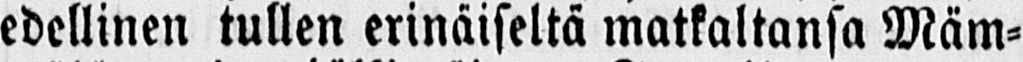edellinen tullen erinäiseltä matkaltansa Mäm-
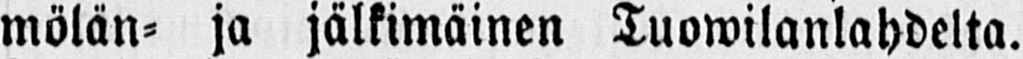mölän- ja jälkimäinen Tuowilanlahdelta.
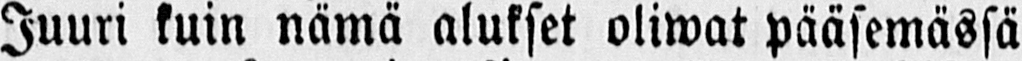Juuri kuin nämä alukset oliwat pääsemässä
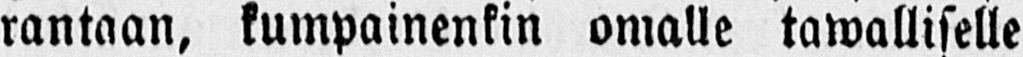rantaan, kumpainenkin omalle tawalliselle
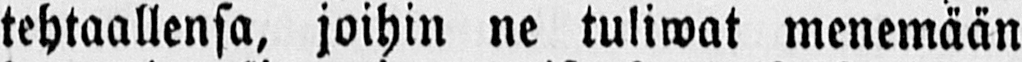tehtaallensa, joihin ne tuliwat menemään
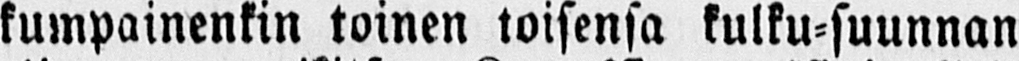kumpainenkin toinen toisensa kulku-suunnan
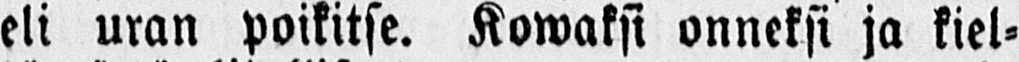eli uran poikitse. Kowaksi onneksi ja kiel-
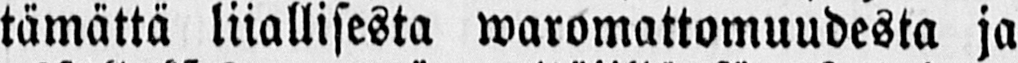tämättä liiallisesta waromattomuudesta ja
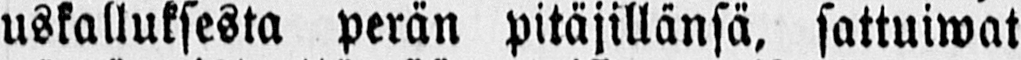uskalluksesta perän pitäjillänsä, sattuiwat
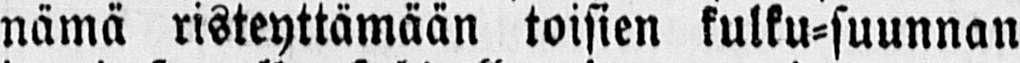nämä risteyttämään toisien kulku-suunnan
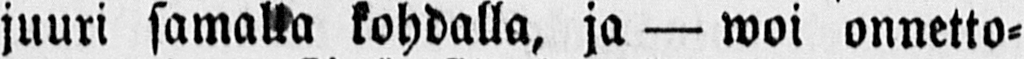juuri samalta kohdalla, ja — woi onnetto-
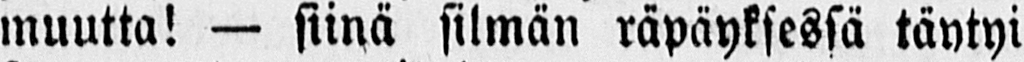muutta! — siinä silmän räpäyksessä täytyi
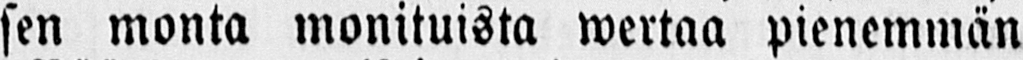sen monta monituista wertaa pienemmän
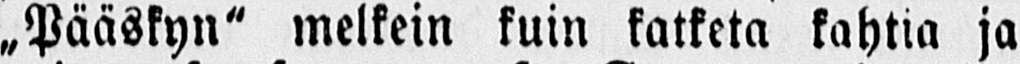„Pääskyn" melkein kuin katketa kahtia ja
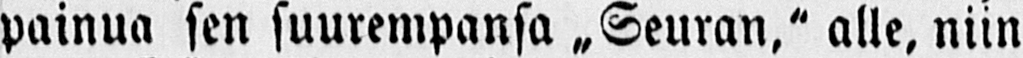painua sen suurempansa, „Seuran," alle, niin
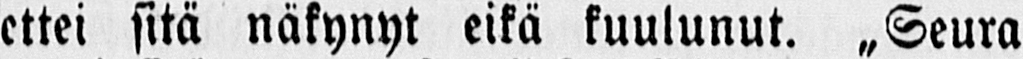ettei sitä näkynyt eikä kuulunut. „Seura
